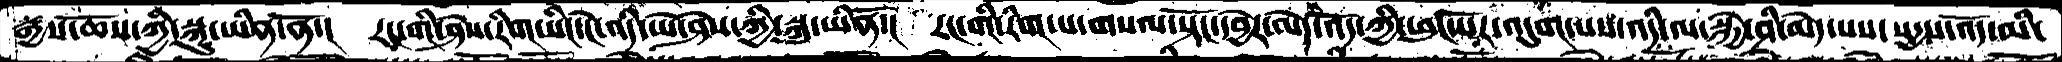རྒྱས་ཆོས་ཀྱི་སྐུ་ཡིན་ནོ་།  རང་གི་ཤེས་རིག་སིང་ངེ་འདི་ཡེ་ཤེས་ཀྱི་སྐུ་ཡིནོ་།  རང་གི་རིག་པ་གསལ་སྟོང་དབྱེར་མེད་འོད་ཀྱི་ཕུང་པོར་འདུག་པས་འདི་ལ་སྐྱེ་ཤི་མེད་པས་སདྱས་འོད་མི་
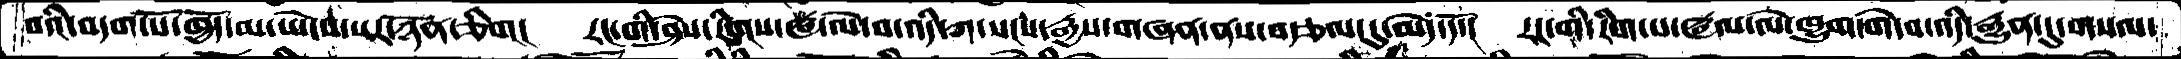བའི་བདག་པོ་ཁྱོད་མ་ཡེངས་པར་ཉོན་ཅིག།  རང་གི་ཤེས་རིགས་ཝ་ལེ་བ་འདི་ཀ་སངས་རྒྱས་གཞན་ནས་བརྩལ་དུ་མེད་དོ་།  རང་གི་རིག་པ་ཝལ་ལེ་ཁྱུག་གེ་བ་འདི་རྒྱུན་དུ་གསལ་
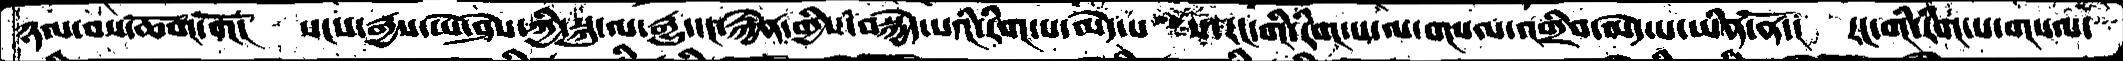ཉལ་བས་ཆོག་གོ།  སངས་རྒྱས་ཡེ་ཤེས་ཀྱི་སྐུ་ལ་རྒྱུ་དང་རྐྱེན་གྱིས་བསྐྱེད་པའི་རིག་པ་མེད་པ ས་རང་གི་རིག་པ་ལ་གསལ་འགྲིབ་མེད་པ་ཡིན་ནོ།  རང་གི་རིག་པ་གསལ་
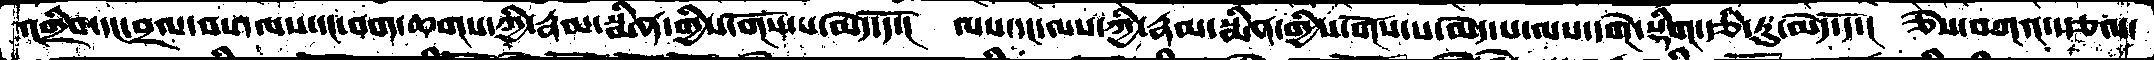འགྲིབ་དང་བྲལ་བས་ལས་དང་བག་ཆགས་ཀྱི་རྣམ་སྨིན་གྱིས་གོས་པ་མེད་དོ་།  ལས་དང་ལས་ཀྱི་རྣམ་སྨིན་གྱིས་གོས་པ་མེད་པ་ལས་དགེ་སྡིག་རྩི་རུ་མེད་དོ་།  ཅེས་བཀའ་སྩལ་
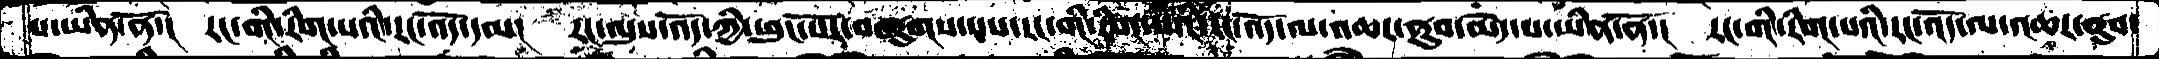པ་ཡིན་ནོ་།  རང་གི་རིག་པའི་རང་འོད་དམ།  རང་ལུས་འོད་ཀྱི་ཕུང་པོར་བཞུགས་པས་རང་གི་རིག་པའི་རང་འོད་ལ་འཆར་ནུབ་མེད་པ་ཡིན་ནོ་།  རང་གི་རིག་པའི་རང་འོད་ལ་འཆར་ནུབ་
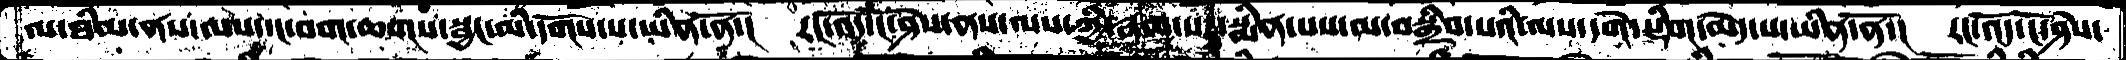ལ་ཐིམ་ནས་ལས་དང་བག་ཆགས་སྦྱང་མི་དགོས་པ་ཡིན་ནོ་།  རང་འོད་ངོ་ཤེས་ནས་ལས་ཀྱི་རྣམ་པར་སྨིན་པས་མ་བསྒྲིབ་པའི་ལས་དགེ་སྡིག་མེད་པ་ཡིན་ནོ་།  རང་འོད་ངོ་ཤེས་
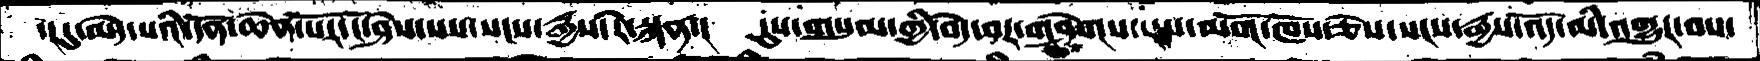་།དུ་མེད་པའི་དོན་ཆེན་པོར་ངོ་ཤེས་པས་སངས་རྒྱས་རེ་སྐན་།  དུས་གསུམ་གྱི་བདེ་བར་གཤེགས་པས་མགོ་ཁོས་ཅེས་སངས་རྒྱས་འོད་མི་འགྱུར་བས་
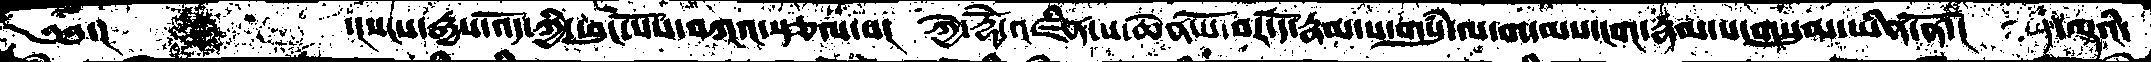༄༅་།     ་།སངས་རྒྱས་འོད་ཀྱི་ཕུང་པོས་བཀའ་སྩལ་བ།  ཀྱེ་རྡོེ་འཛིན་པ་ཆེན་པོ་བར་དོ་རྣམ་པ་གསུཾ་ལ་གདམས་ངག་རྣམ་པ་གསུམ་ཡིན་ནོ་།   ད་ལྟའི་
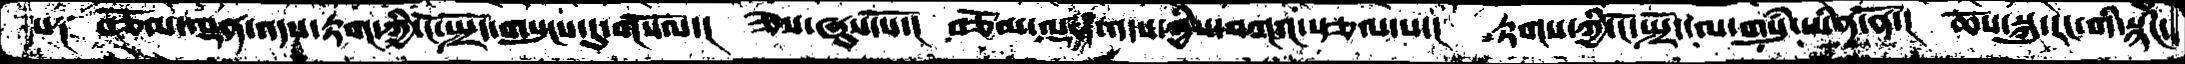ས༑  བཅོམ་ལྡན་འདས་རྟག་ཀྱི་ངོ་སྤྲོད་གསུངས་དུ་གསོལ་།  ཅེས་ཞུས་སོ་།  བཅོམ་ལྡན་འདས་ཀྱིས་བཀའ་སྩལ་པ་།  རྟགས་ཀྱི་ངོ་སྤྲོད་ལ་གསུཾ་ཡིན་ནོ་།  ཆོས་སྐུ་རང་གི་སྙིང་
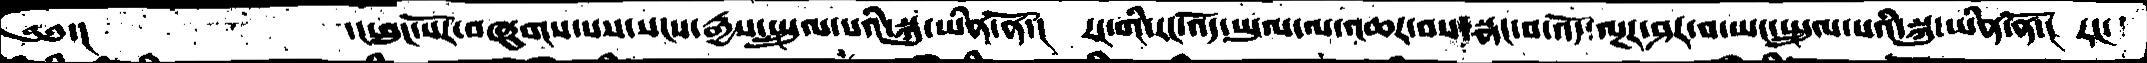༄༅་།           ་།ཕུང་པོར་གཞུགས་པས་སངས་རྒྱས་སྤྲུལ་པའི་སྐུ་ཡིིན་ནོ་།    རང་གི་རང་འོད་ཡུལ་ལ་འཆར་བས་སྣང་བ་འོད་ལྔར་ཤར་བ་ཡང་སྤྲུལ་པའི་སྐུ་ཡིན་ནོ་།  རང་
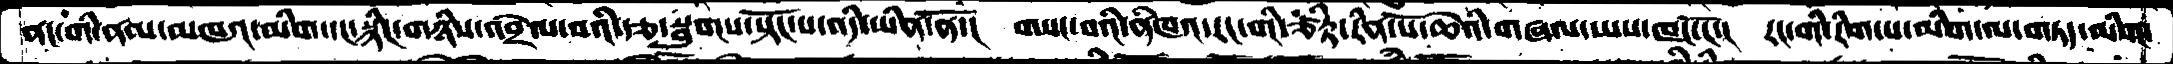ནང་གི་ནམ་མཁའ་མིག་དང་སྙིང་གཉིས་འབྲེལ་བའི་རྩ་སྦུགས་སྟོང་པ་འདི་ཡིན་ནོ་།  གསང་བའི་ནཾཁའ་རང་གི་ཙིཏྟ་རིན་་པོ་ཆེའི་གཞལ་ཡས་ཁང་ངོ་།  རང་གི་རིག་པ་མིག་ལ་གཏད་མིག་
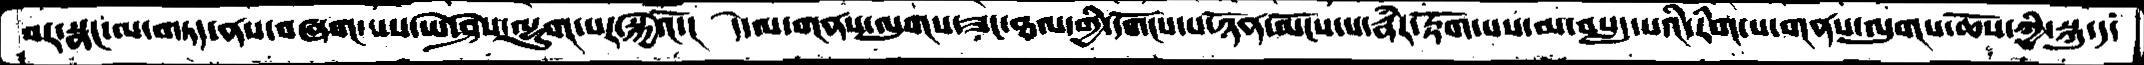བར་སྣང་ལ་གཏད་ནས་བཞག་པས་ཡེ་ཤེས་ལྷུག་པར་སྐྱེའོ་།  དེ་ལ་གནས་ལུགས་ཟང་ཐལ་གྱི་དགོངས་པ་ཉོན་མོངས་པ་རྣཾར་རྟོག་པས་མ་བསླད་པའི་གནས་ལུགས་ཆོས་ཀྱི་སྐུ་ད་
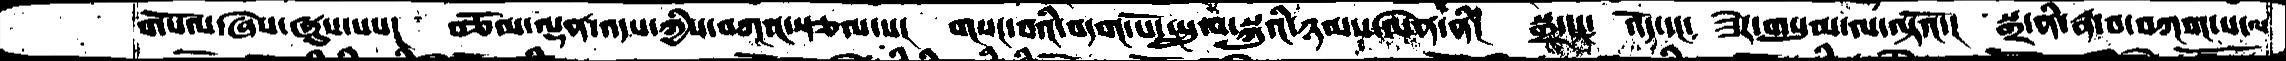གསོལ་ཞེས་ཞུས་པས།   བཅོམ་ལྡན་འདས་ཀྱིས་བཀའ་སྩལ་པ།    གསང་བའི་བདག་པོ་སྤྲུལ་སྐུའི་ཉམས་ལེན་ནི།   སྒྲ་དང༴     འོད་དང༴  ཟེར་གསུམ་ལ་ལྟའོ་།  སྒྲ་ནི་རྣ་བ་བཀག་པ་ལ་
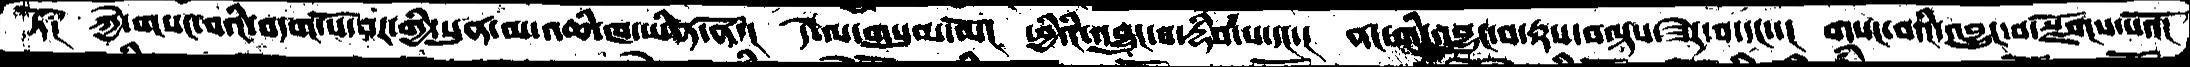ཏོ༑  ཀྱེ་གསང་བའི་བདག་པོ་བར་གྱི་སུན་མ་འཆི་ཁ་ཡིན་ནོ་།  དེ་ལ་གསུམ་མོ།  ཕྱིའི་འབྱུང་བ་རྡིབ་པ་དང་། ནང་གི་འབྱུང་བ་རྟས་བལྟས་ཟེར་བ་དང་་།  གསང་བའི་འབྱུང་བ་སྫོགས་པའོ།
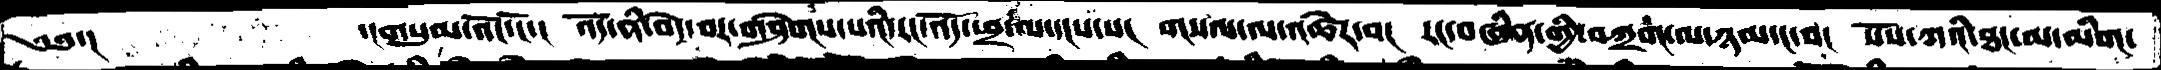༄༅་།       དངགསུམ་འོང་ངོ་།  འོད་ནི་བདེ་བར་གཤེགས་པའི་རང་འོད་ཕྲ་ལ་དངས་པ།  གསལ་ལ་འཚེར་བ།  རང་བཞིན་གྱི་བཀྲག་ལ་ཉམ་ང་བ།  སོས་ཀའི་ཐང་མ་མིག་
